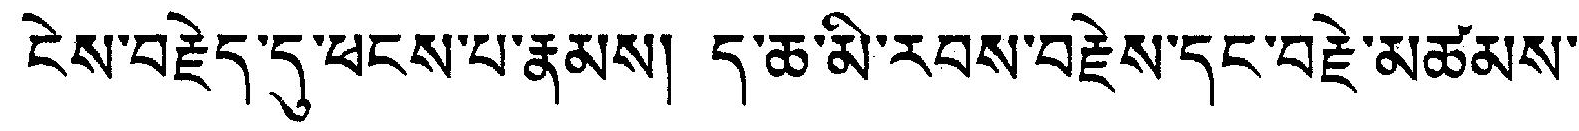ངེས་བརྗེད་དུ་ཕངས་པ་རྣམས། ད་ཆ་མི་རབས་བརྗེས་དང་བརྗེ་མཚམས་
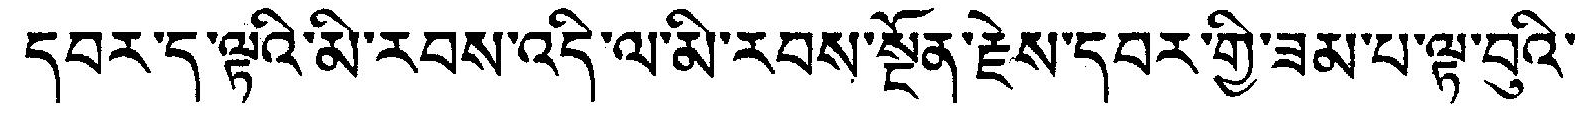དབར་ད་ལྟའི་མི་རབས་འདི་ལ་མི་རབས་སྔོན་རྗེས་དབར་གྱི་ཟམ་པ་ལྟ་བུའི་
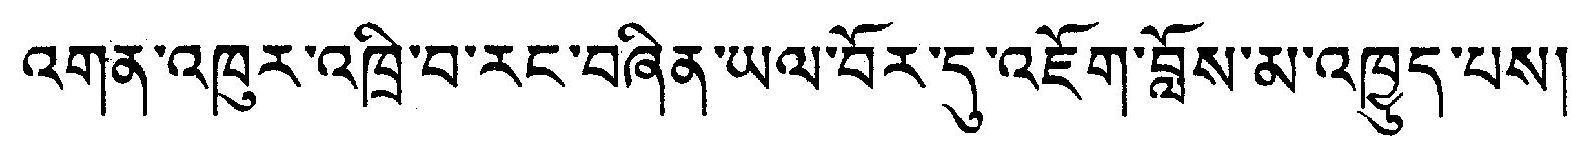འགན་འཁུར་འཁྲི་བ་རང་བཞིན་ཡལ་བོར་དུ་འཇོག་བློས་མ་འཁྱུད་པས།
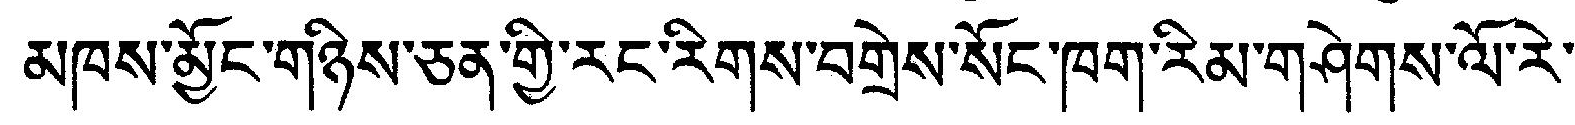མཁས་མྱོང་གཉིས་ཅན་གྱི་རང་རིགས་བགྲེས་སོང་ཁག་རིམ་གཤེགས་ལོ་རེ་
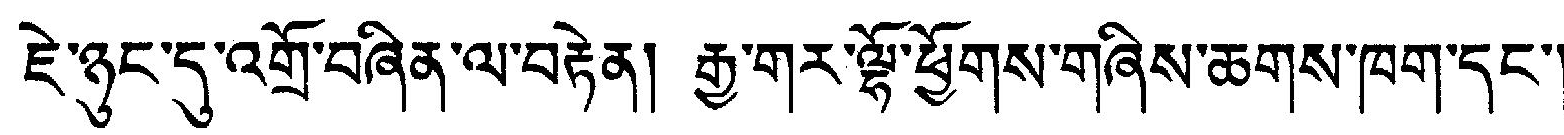ཇེ་ཉུང་དུ་འགྲོ་བཞིན་ལ་བརྟེན། རྒྱ་གར་ལྷོ་ཕྱོགས་གཉིས་ཆགས་ཁག་དང་།
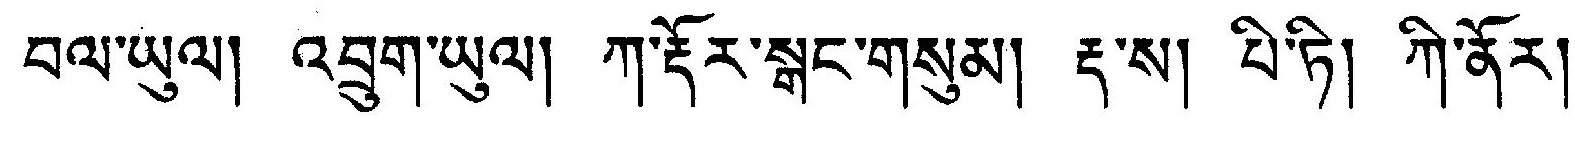བལ་ཡུལ། འབྲུག་ཡུལ། ཀ་རྡོར་སྒང་གསུམ། རྡ་ས། པི་ཏི། ཀི་ནོར།
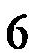6
